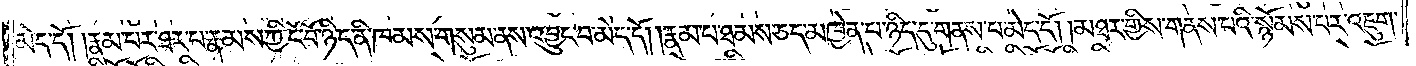མེད་དོ། །རྣམ་པར་ཐར་པ་རྣམས་ཀྱི་ངོ་བོ་ཉིད་ནི་ཁམས་གསུམ་ནས་འབྱུང་བ་མེད་དོ། །རྣམ་པ་ཐམས་ཅད་མཁྱེན་པ་ཉིད་དུ་གནས་པ་མེད་དོ། །མཐར་གྱིས་གནས་པའི་སྙོམས་པར་འཇུག་
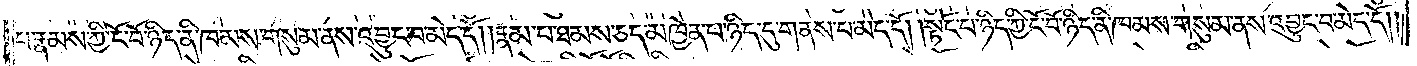པ་རྣམས་ཀྱི་ངོ་བོ་ཉིད་ནི་ཁམས་གསུམ་ནས་འབྱུང་བ་མེད་དོ། །རྣམ་པ་ཐམས་ཅད་མཁྱེན་པ་ཉིད་དུ་གནས་པ་མེད་དོ། །སྟོང་པ་ཉིད་ཀྱི་ངོ་བོ་ཉིད་ཁམས་གསུམ་ནས་འབྱུང་བ་མེད་དོ། །
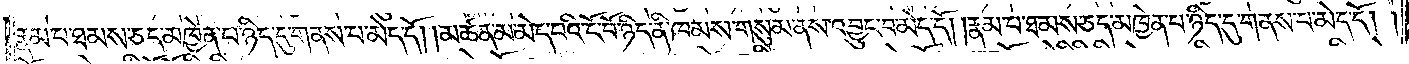རྣམ་པ་ཐམས་ཅད་མཁྱེན་པ་ཉིད་དུ་གནས་པ་མེད་དོ། །མཚན་མ་མེད་པའི་ངོ་བོ་ཉིད་ནི་ཁམས་གསུམ་ནས་འབྱུང་བ་མེད་དོ། །རྣམ་པ་ཐམས་ཅད་མཁྱེན་པ་ཉིད་དུ་གནས་པ་མེད་དོ། །
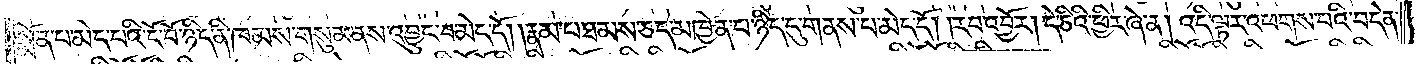སྨོན་པ་མེད་པའི་ངོ་བོ་ཉིད་ནི་ཁམས་གསུམ་ནས་འབྱུང་བ་མེད་དོ། །རྣམ་པ་ཐམས་ཅད་མཁྱེན་པ་ཉིད་དུ་གནས་པ་མེད་དོ། །རབ་འབྱོར། དེ་ཅིའི་ཕྱིར་ཞེ་ན། འདི་ལྟར་འཕགས་པའི་བདེན་
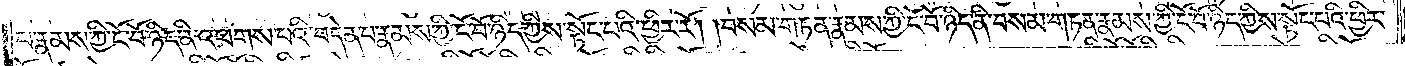པ་རྣམས་ཀྱི་ངོ་བོ་ཉིད་ནི་འཕགས་པའི་བདེན་པ་རྣམས་ཀྱི་ངོ་བོ་ཉིད་ཀྱིས་སྟོང་པའི་ཕྱིར་རོ། །བསམ་གཏན་རྣམས་ཀྱི་ངོ་བོ་ཉིད་ནི་བསམ་གཏན་རྣམས་ཀྱི་ངོ་བོ་ཉིད་ཀྱིས་སྟོང་པའི་ཕྱིར་
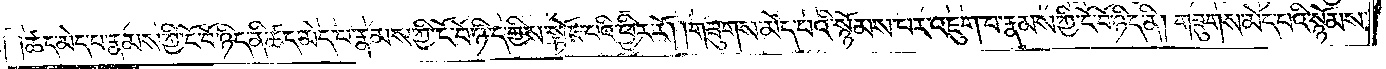རོ། །ཚད་མེད་པ་རྣམས་ཀྱི་ངོ་བོ་ཉིད་ནི་ཚད་མེད་པ་རྣམས་ཀྱི་ངོ་བོ་ཉིད་ཀྱིས་སྟོང་པའི་ཕྱིར་རོ། །གཟུགས་མེད་པའི་སྙོམས་པར་འཇུག་པ་རྣམས་ཀྱི་ངོ་བོ་ཉིད་ནི། གཟུགས་མེད་པའི་སྙོམས་
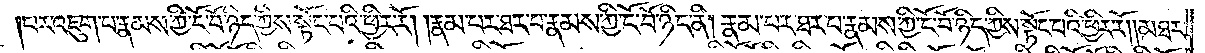པར་འཇུག་པ་རྣམས་ཀྱི་ངོ་བོ་ཉིད་ཀྱིས་སྟོང་པའི་ཕྱིར་རོ། །རྣམ་པར་ཐར་པ་རྣམས་ཀྱི་ངོ་བོ་ཉིད་ནི། རྣམ་པར་ཐར་པ་རྣམས་ཀྱི་ངོ་བོ་ཉིད་ཀྱིས་སྟོང་པའི་ཕྱིར་རོ། །མཐར་
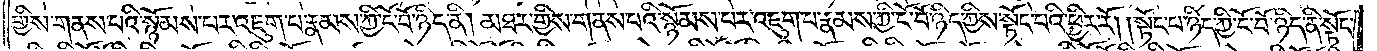གྱིས་གནས་པའི་སྙོམས་པར་འཇུག་པ་རྣམས་ཀྱི་ངོ་བོ་ཉིད་ནི། མཐར་གྱིས་གནས་པའི་སྙོམས་པར་འཇུག་པ་རྣམས་ཀྱི་ངོ་བོ་ཉིད་ཀྱིས་སྟོང་པའི་ཕྱིར་རོ། །སྟོང་པ་ཉིད་ཀྱི་ངོ་བོ་ཉིད་ནི་སྟོང་
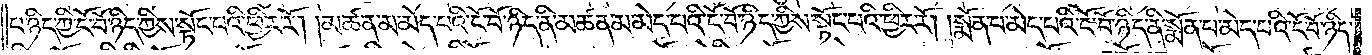པ་ཉིད་ཀྱི་ངོ་བོ་ཉིད་ཀྱིས་སྟོང་པའི་ཕྱིར་རོ། །མཚན་མ་མེད་པའི་ངོ་བོ་ཉིད་ནི་མཚན་མ་མེད་པའི་ངོ་བོ་ཉིད་ཀྱིས་སྟོང་པའི་ཕྱིར་རོ། །སྨོན་པ་མེད་པའི་ངོ་བོ་ཉིད་ནི་སྨོན་པ་མེད་པའི་ངོ་བོ་ཉིད་
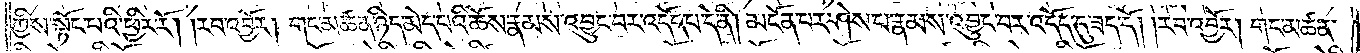ཀྱིས་སྟོང་པའི་ཕྱིར་རོ། །རབ་འབྱོར། གང་མཚན་ཉིད་མེད་པའི་ཆོས་རྣམས་འབྱུང་བར་འདོད་པ་དེ་ནི། མངོན་པར་ཤེས་པ་རྣམས་འབྱུང་བར་འདོད་དུ་ཟད་དོ། །རབ་འབྱོར། གང་མཚན་
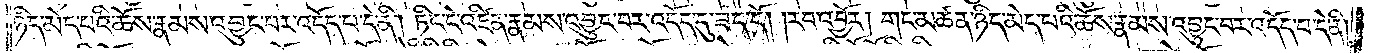ཉིད་མེད་པའི་ཆོས་རྣམས་འབྱུང་བར་འདོད་པ་དེ་ནི། ཏིང་ངེ་འཛིན་རྣམས་འབྱུང་བར་འདོད་དུ་ཟད་དོ། །རབ་འབྱོར། གང་མཚན་ཉིད་མེད་པའི་ཆོས་རྣམས་འབྱུང་བར་འདོད་པ་དེ་ནི།
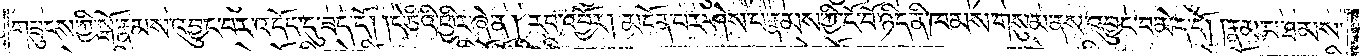གཟུངས་ཀྱི་སྒོ་རྣམས་འབྱུང་བར་འདོད་དུ་ཟད་དོ། །དེ་ཅིའི་ཕྱིར་ཞེ་ན། རབ་འབྱོར། མངོན་པར་ཤེས་པ་རྣམས་ཀྱི་ངོ་བོ་ཉིད་ནི་ཁམས་གསུམ་ནས་འབྱུང་བ་མེད་དོ། །རྣམ་པ་ཐམས་
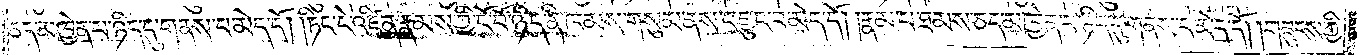ཅད་མཁྱེན་པ་ཉིད་དུ་གནས་པ་མེད་དོ། །ཏིང་ངེ་འཛིན་རྣམས་ཀྱི་ངོ་བོ་ཉིད་ནི་ཁམས་གསུམ་ནས་འབྱུང་བ་མེད་དོ། །རྣམ་པ་ཐམས་ཅད་མཁྱེན་པ་ཉིད་དུ་གནས་པ་མེད་དོ། །གཟུངས་ཀྱི་
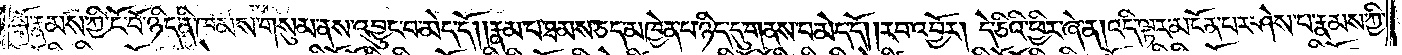སྒོ་རྣམས་ཀྱི་ངོ་བོ་ཉིད་ནི་ཁམས་གསུམ་ནས་འབྱུང་བ་མེད་དོ། །རྣམ་པ་ཐམས་ཅད་མཁྱེན་པ་ཉིད་དུ་གནས་པ་མེད་དོ། །རབ་འབྱོར། དེ་ཅིའི་ཕྱིར་ཞེ་ན། འདི་ལྟར་མངོན་པར་ཤེས་པ་རྣམས་ཀྱི་
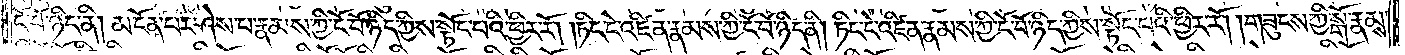ངོ་བོ་ཉིད་ནི། མངོན་པར་ཤེས་པ་རྣམས་ཀྱི་ངོ་བོ་ཉིད་ཀྱིས་སྟོང་པའི་ཕྱིར་རོ། །ཏིང་ངེ་འཛིན་རྣམས་ཀྱི་ངོ་བོ་ཉིད་ནི། ཏིང་ངེ་འཛིན་རྣམས་ཀྱི་ངོ་བོ་ཉིད་ཀྱིས་སྟོང་པའི་ཕྱིར་རོ། །གཟུངས་ཀྱི་སྒོ་རྣམས་
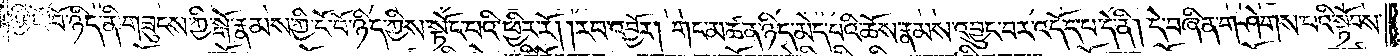ཀྱི་ངོ་བོ་ཉིད་ནི་གཟུངས་ཀྱི་སྒོ་རྣམས་ཀྱི་ངོ་བོ་ཉིད་ཀྱིས་སྟོང་པའི་ཕྱིར་རོ། །རབ་འབྱོར། གང་མཚན་ཉིད་མེད་པའི་ཆོས་རྣམས་འབྱུང་བར་འདོད་པ་དེ་ནི། དེ་བཞིན་གཤེགས་པའི་སྟོབས་
